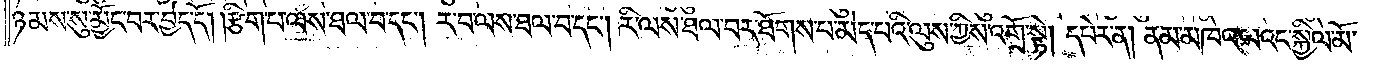ཉམས་སུ་མྱོང་བར་བྱེད་དོ། །རྩིག་པ་ལས་ཐལ་བ་དང༌། ར་བ་ལས་ཐལ་བ་དང༌། རི་ལས་ཐལ་བར་ཐོགས་པ་མེད་པའི་ལུས་ཀྱིས་འགྲོ་སྟེ། དཔེར་ན། ནམ་མཁའ་ལའང་སྐྱིལ་མོ་
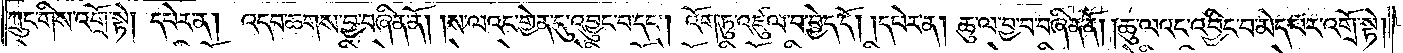ཀྲུང་གིས་འགྲོ་སྟེ། དཔེར་ན། འདབ་ཆགས་བྱ་བཞིན་ནོ། །ས་ལའང་གྱེན་དུ་འབྱུང་བ་དང༌། འོག་ཏུ་འཛུལ་བ་བྱེད་དོ། །དཔེར་ན། ཆུ་ལ་བྱ་བ་བཞིན་ནོ། །ཆུ་ལའང་འབྱིང་བ་མེད་པར་འགྲོ་སྟེ།
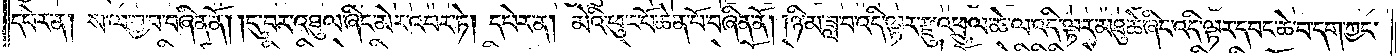དཔེར་ན། ས་ལ་བྱ་བ་བཞིན་ནོ། །དུ་བར་འཐུལ་ཞིང་མེར་འབར་ཏེ། དཔེར་ན། མེའི་ཕུང་པོ་ཆེན་པོ་བཞིན་ནོ། །ཉི་མ་ཟླ་བ་འདི་ལྟར་རྫུ་འཕྲུལ་ཆེ་ལ་འདི་ལྟར་མཐུ་ཆེ་ཞིང་འདི་ལྟར་དབང་ཆེ་བ་དག་ཀྱང་
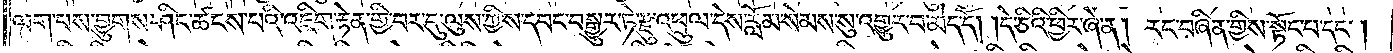ལག་པས་བྱུགས་ཤིང་ཚངས་པའི་འཇིག་རྟེན་གྱི་བར་དུ་ལུས་ཀྱིས་དབང་བསྒྱུར་ཏེ་རྫུ་འཕྲུལ་དེས་རློམ་སེམས་སུ་འགྱུར་བ་མེད་དོ། །དེ་ཅིའི་ཕྱིར་ཞེ་ན། རང་བཞིན་གྱིས་སྟོང་པ་དང༌།
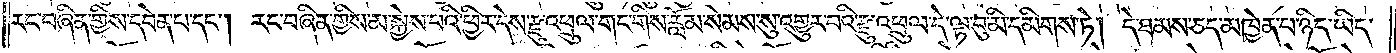རང་བཞིན་གྱིས་དབེན་པ་དང༌། རང་བཞིན་གྱིས་མ་སྐྱེས་པའི་ཕྱིར་དེས་རྫུ་འཕྲུལ་གང་གིས་རློམ་སེམས་སུ་འགྱུར་བའི་རྫུ་འཕྲུལ་དེ་ལྟ་བུ་མི་དམིགས་ཏེ། དེ་ཐམས་ཅད་མཁྱེན་པ་ཉིད་ཡིད་
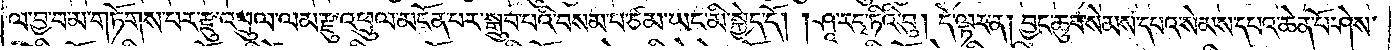ལ་བྱ་བ་མ་གཏོགས་པར་རྫུ་འཕྲུལ་ལམ་རྫུ་འཕྲུལ་མངོན་པར་སྒྲུབ་པའི་བསམ་པ་ཙམ་ཡང་མི་སྐྱེད་དོ། །ཤཱ་ར་དྭ་ཏིའི་བུ། དེ་ལྟར་ན། བྱང་ཆུབ་སེམས་དཔའ་སེམས་དཔའ་ཆེན་པོ་ཤེས་
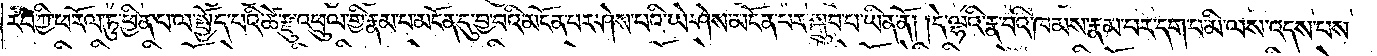རབ་ཀྱི་ཕ་རོལ་ཏུ་ཕྱིན་པ་ལ་སྤྱོད་པའི་ཚེ་རྫུ་འཕྲུལ་གྱི་རྣམ་པ་མངོན་དུ་བྱ་བའི་མངོན་པར་ཤེས་པའི་ཡེ་ཤེས་མངོན་པར་སྒྲུབ་པ་ཡིན་ནོ། །དེ་ལྷའི་རྣ་བའི་ཁམས་རྣམ་པར་དག་པ་མི་ལས་འདས་པས་
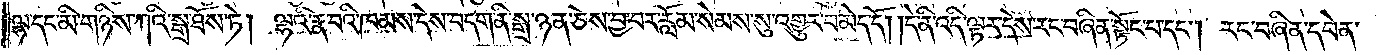ལྷ་དང་མི་གཉིས་ཀའི་སྒྲ་ཐོས་ཏེ། ལྷའི་རྣ་བའི་ཁམས་དེས་བདག་ནི་སྒྲ་ཉན་ཅེས་བྱ་བར་རློམ་སེམས་སུ་འགྱུར་བ་མེད་དོ། །དེ་ནི་འདི་ལྟར་དེས་རང་བཞིན་སྟོང་པ་དང༌། རང་བཞིན་དབེན་
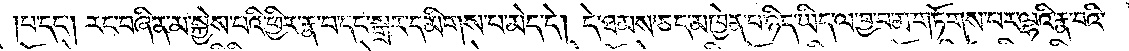པ་དང༌། རང་བཞིན་མ་སྐྱེས་པའི་ཕྱིར་རྣ་བ་དང་སྒྲར་དམིགས་པ་མེད་དེ། དེ་ཐམས་ཅད་མཁྱེན་པ་ཉིད་ཡིད་ལ་བྱ་བ་མ་གཏོགས་པར་ལྷའི་རྣ་བའི་
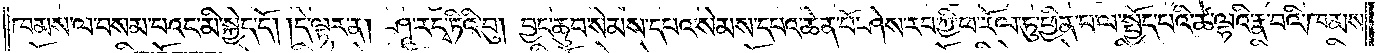ཁམས་ལ་བསམ་པའང་མི་སྐྱེད་དོ། །དེ་ལྟར་ན། ཤཱ་ར་དྭ་ཏིའི་བུ། བྱང་ཆུབ་སེམས་དཔའ་སེམས་དཔའ་ཆེན་པོ་ཤེས་རབ་ཀྱི་ཕ་རོལ་ཏུ་ཕྱིན་པ་ལ་སྤྱོད་པའི་ཚེ་ལྷའི་རྣ་བའི་ཁམས་
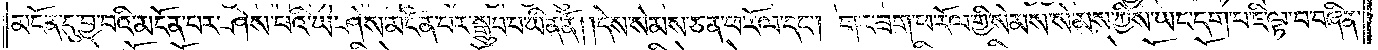མངོན་དུ་བྱ་པའི་མངོན་པར་ཤེས་པའི་ཡེ་ཤེས་མངོན་པར་སྒྲུབ་པ་ཡིན་ནོ། །དེས་སེམས་ཅན་ཕ་རོལ་དང༌། གང་ཟག་ཕ་རོལ་གྱི་སེམས་སེམས་ཀྱིས་ཡང་དག་པ་ཇི་ལྟ་བ་བཞིན་
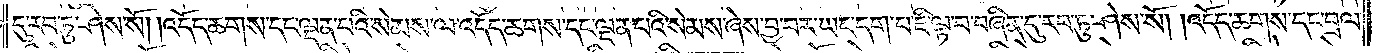དུ་རབ་ཏུ་ཤེས་སོ། །འདོད་ཆགས་དང་ལྡན་པའི་སེམས་ལ་འདོད་ཆགས་དང་ལྡན་པའི་སེམས་ཞེས་བྱ་བར་ཡང་དག་པ་ཇི་ལྟ་བ་བཞིན་དུ་རབ་ཏུ་ཤེས་སོ། །འདོད་ཆགས་དང་བྲལ་
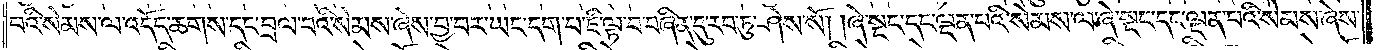བའི་སེམས་ལ་འདོད་ཆགས་དང་བྲལ་བའི་སེམས་ཞེས་བྱ་བར་ཡང་དག་པ་ཇི་ལྟ་བ་བཞིན་དུ་རབ་ཏུ་ཤེས་སོ། །ཞེ་སྡང་དང་ལྡན་པའི་སེམས་ལ་ཞེ་སྡང་དང་ལྡན་པའི་སེམས་ཞེས་
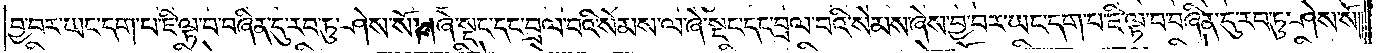བྱ་བར་ཡང་དག་པ་ཇི་ལྟ་བ་བཞིན་དུ་རབ་ཏུ་ཤེས་སོ། །ཞེ་སྡང་དང་བྲལ་བའི་སེམས་ལ་ཞེ་སྡང་དང་བྲལ་བའི་སེམས་ཞེས་བྱ་བར་ཡང་དག་པ་ཇི་ལྟ་བ་བཞིན་དུ་རབ་ཏུ་ཤེས་སོ།
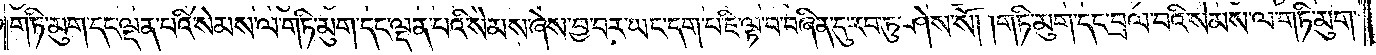གཏི་མུག་དང་ལྡན་པའི་སེམས་ལ་གཏི་མུག་དང་ལྡན་པའི་སེམས་ཞེས་བྱ་བར་ཡང་དག་པ་ཇི་ལྟ་བ་བཞིན་དུ་རབ་ཏུ་ཤེས་སོ། །གཏི་མུག་དང་བྲལ་བའི་སེམས་ལ་གཏི་མུག་
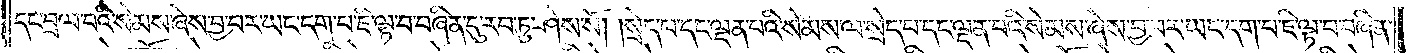དང་བྲལ་བའི་སེམས་ཞེས་བྱ་བར་ཡང་དག་པ་ཇི་ལྟ་བ་བཞིན་དུ་རབ་ཏུ་ཤེས་སོ། །སྲེད་པ་དང་ལྡན་པའི་སེམས་ལ་སྲེད་པ་དང་ལྡན་པའི་སེམས་ཞེས་བྱ་བར་ཡང་དག་པ་ཇི་ལྟ་བ་བཞིན་
